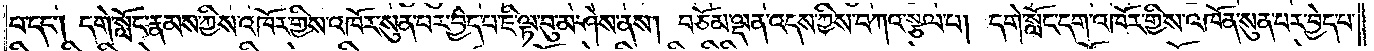པ་དང༌། དགེ་སློང་རྣམས་ཀྱིས་འཁོར་གྱིས་འཁོར་སུན་པར་བྱེད་པ་ཇི་ལྟ་བུ་མ་ཤེས་ནས། བཅོམ་ལྡན་འདས་ཀྱིས་བཀའ་སྩལ་པ། དགེ་སློང་དག་འཁོར་གྱིས་འཁོན་སུན་པར་བྱེད་པ་
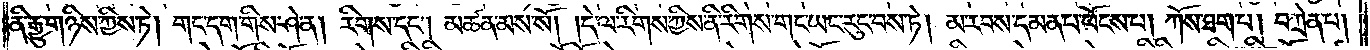ནི་རྒྱུ་གཉིས་ཀྱིས་ཏེ། གང་དག་གིས་ཤེ་ན། རིགས་དང༌། མཚན་མས་སོ། །དེ་ལ་རིགས་ཀྱིས་ནི་རིགས་གང་ཡང་རུང་བས་ཏེ། མ་རབས་དམན་པ་ཕོངས་པ། ཀོས་ཐག་པ། བཀྲེན་པ།
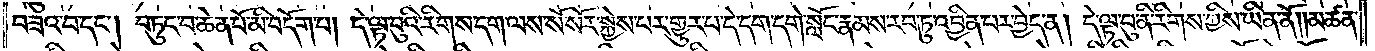བཟའ་བ་དང༌། བཏུང་བ་ཆེན་པོ་མི་བདོག་པ། དེ་ལྟ་བུའི་རིགས་དག་ལས་སོ་སོར་སྐྱེས་པར་གྱུར་པ་དེ་དག་དགེ་སློང་རྣམས་རབ་ཏུ་འབྱིན་པར་བྱེད་ན། དེ་ལྟ་བུ་ནི་རིགས་ཀྱིས་ཡིན་ནོ། །མཚན་
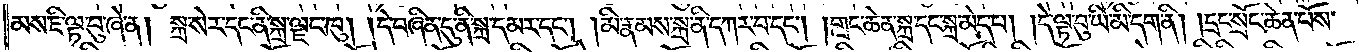མས་ཇི་ལྟ་བུ་ཞེ་ན། སྐྲ་སེར་དང་ནི་སྐྲ་ལྗང་ཁུ། །དེ་བཞིན་དུ་ནི་སྐྲ་དམར་དང༌། །མི་རྣམས་སྐྲ་ནི་དཀར་བ་དང༌། །གྲང་ཆེན་སྐྲ་དང་སྐྲ་མེད་པ། །དེ་ལྟ་བུ་ཡི་མི་དག་ནི། །དྲང་སྲོང་ཆེན་པོས་
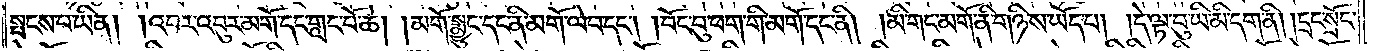སྤངས་པ་ཡིན། །འབར་འབུར་མགོ་དང་གླང་པོ་ཆེ། །མགོ་སྨྱུང་དང་ནི་མགོ་ལེབ་དང༌། །བོང་བུ་ཕག་གི་མགོ་དང་ནི། །མི་གང་མགོ་ནི་གཉིས་ཡོད་པ། །དེ་ལྟ་བུ་ཡི་མི་དག་ནི། །དྲང་སྲོང་
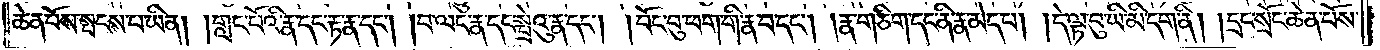ཆེན་པོས་སྤངས་པ་ཡིན། །གླང་པོའི་རྣ་དང་རྟ་རྣ་དང༌། །བ་ལང་རྣ་དང་སྤྲེའུ་རྣ་དང༌། །བོང་བུ་ཕག་གི་རྣ་བ་དང༌། །རྣ་གཅིག་དང་ནི་རྣ་མེད་པ། །དེ་ལྟ་བུ་ཡི་མི་དག་ནི། །དྲང་སྲོང་ཆེན་པོས་
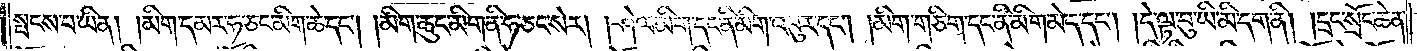སྤངས་པ་ཡིན། །མིག་དམར་ཧ་ཅང་མིག་ཆེ་དང༌། །མིག་ཆུང་མིག་ནི་ཧ་ཅང་སེར། །ཤེལ་མིག་དང་ནི་མིག་འབུར་དང༌། །མིག་གཅིག་དང་ནི་མིག་མེད་དང༌། །དེ་ལྟ་བུ་ཡི་མི་དག་ནི། །དྲང་སྲོང་ཆེན་
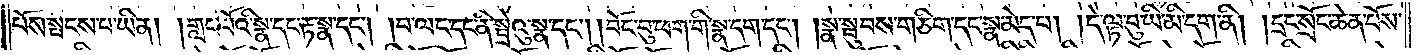པོས་སྤངས་པ་ཡིན། །གླང་པོའི་སྣ་དང་རྟ་སྣ་དང༌། །བ་ལང་དང་ནི་སྤྲེའུ་སྣ་དང༌། །བོང་བུ་ཕག་གི་སྣ་དག་དང༌། །སྣ་སྦུབས་གཅིག་དང་སྣ་མེད་པ། །དེ་ལྟ་བུ་ཡི་མི་དག་ནི། །དྲང་སྲོང་ཆེན་པོས་
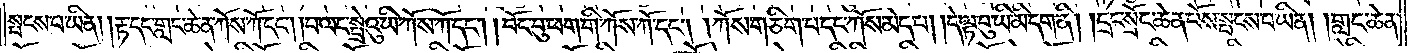སྤངས་པ་ཡིན། །རྟ་དང་གླང་ཆེན་ཀོས་ཀོ་དང༌། །བ་ལང་སྤྲེའུ་ཡི་ཀོས་ཀོ་དང༌། །བོང་བུ་ཕག་གི་ཀོས་ཀོ་དང༌། །ཀོས་གཅིག་པ་དང་ཀོས་མེད་པ། །དེ་ལྟ་བུ་ཡི་མི་དག་ནི། །དྲང་སྲོང་ཆེན་པོས་སྤངས་པ་ཡིན། །གླང་ཆེན་
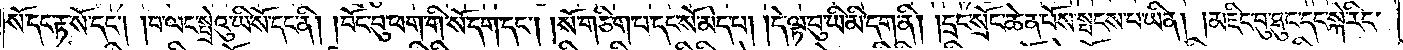སོ་དང་རྟ་སོ་དང༌། །བ་ལང་སྤྲེའུ་ཡི་སོ་དང་ནི། །བོང་བུ་ཕག་གི་སོ་དག་དང༌། །སོ་གཅིག་པ་དང་སོ་མེད་པ། །དེ་ལྟ་བུ་ཡི་མི་དག་ནི། །དྲང་སྲོང་ཆེན་པོས་སྤངས་པ་ཡིན། །མཇིང་བུ་ཐུང་དང་སྐེ་རིང་
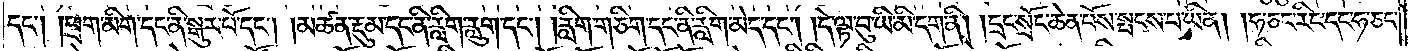དང༌། །ཕྲག་མིག་དང་ནི་སྒུར་པོ་དང༌། །མཚན་རྡུམ་དང་ནི་རླིག་རླུག་དང༌། །རླིག་གཅིག་དང་ནི་རླིག་མེད་དང༌། །དེ་ལྟ་བུ་ཡི་མི་དག་ནི། །དྲང་སྲོང་ཆེན་པོས་སྤངས་པ་ཡིན། །ཧ་ཅང་རིང་དང་ཧ་ཅང་
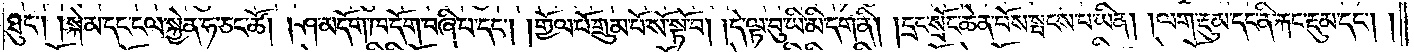ཐུང༌། །སྐེམ་དང་ངལ་སྐྱེན་ཧ་ཅང་ཚོལ། །ཤ་མདོག་ཁ་དོག་བཞི་པ་དང༌། །གྱོལ་པོ་གྲུམ་པོ་སོ་སྟོ་བ། །དེ་ལྟ་བུ་ཡི་མི་དག་ནི། །དྲང་སྲོང་ཆེན་པོས་སྤངས་པ་ཡིན། །ལག་རྡུམ་དང་ནི་རྐང་རྡུམ་དང༌། །
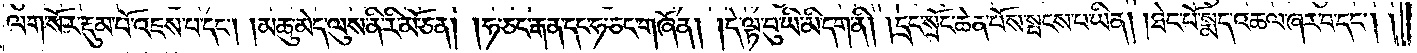ལག་སོར་རྡུམ་པོ་འཇས་པ་དང༌། །མཆུ་མེད་ལུས་ནི་རི་མོ་ཅན། །ཧ་ཅང་རྒན་དང་ཧ་ཅང་གཞོན། །དེ་ལྟ་བུ་ཡི་མི་དག་ནི། །དྲང་སྲོང་ཆེན་པོས་སྤངས་པ་ཡིན། །ཐེང་པོ་སྨད་འཆལ་ཞར་བ་དང༌། །
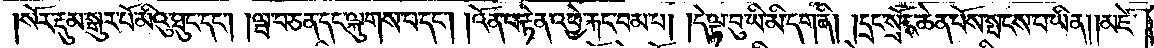སོར་རྡུམ་སྒུར་པོ་མིའུ་ཐུང་དང༌། །ཝ་བ་ཅན་དང་ལྐུགས་བ་དང༌། །འོན་བ་རྟེན་འཕྱེ་རྐང་བམ་པ། །དེ་ལྟ་བུ་ཡི་མི་དག་ནི། །དྲང་སྲོང་ཆེན་པོས་སྤངས་པ་ཡིན། །མཛེ་
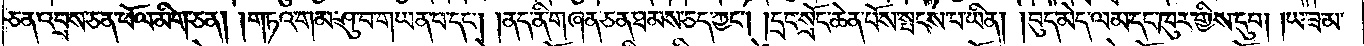ཅན་འབྲས་ཅན་ཕོལ་མིག་ཅན། །གཏའ་གམ་ཤུ་བ་གཡན་པ་དང༌། །ནད་ནི་གཞན་ཅན་ཐམས་ཅད་ཀྱང༌། །དྲང་སྲོད་ཆེན་པོས་སྤངས་པ་ཡིན། །བུད་མེད་ལམ་དང་ཁུར་གྱིས་དུབ། །ཡ་ཟ་མ་
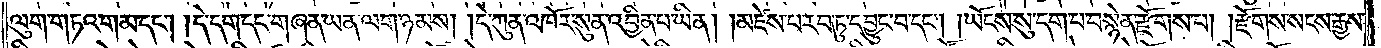ལུག་གཏའ་གམ་དང༌། །དེ་དག་དང་གཞན་ཡན་ལག་ཉམས། །དེ་ཀུན་འཁོར་སུན་འབྱིན་པ་ཡིན། །མཛེས་པ་རབ་ཏུ་དབྱུང་བ་དང༌། །ཡོངས་སུ་དག་པ་བསྙེན་རྫོགས་པ། །རྫོགས་སངས་རྒྱས་
